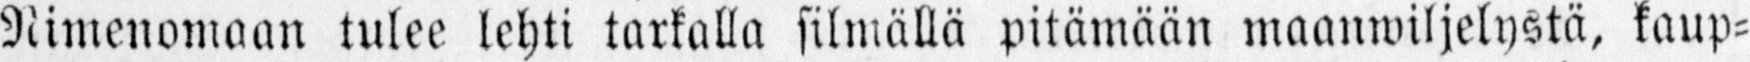Nimenomaan tulee lehti tarkalla silmällä pitämään maanwiljelystä, kaup-
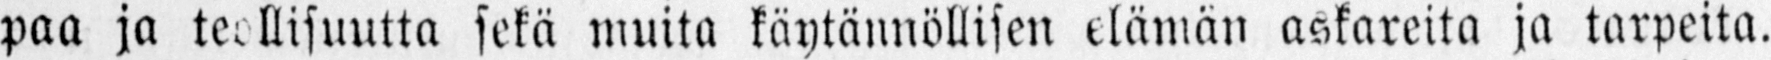paa ja teollisuutta sekä muita käytännöllisen elämän askareita ja tarpeita.
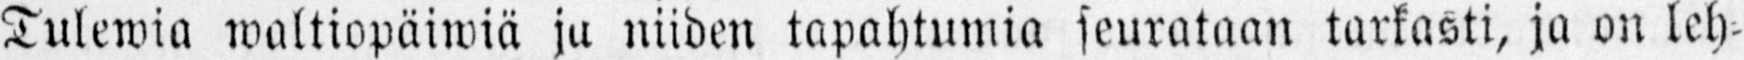Tulewia waltiopäiwiä ja niiden tapahtumia seurataan tarkasti, ja on leh-
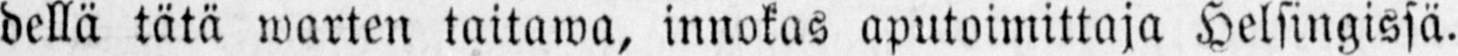dellä tätä warten taitawa, innokas aputoimittaja Helsingissä.
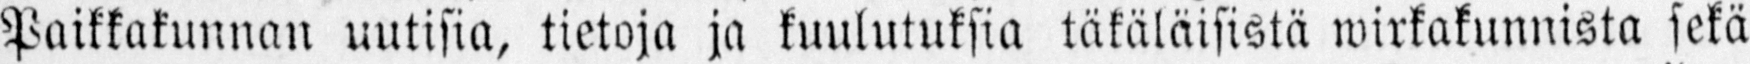Paikkakunnan uutisia, tietoja ja kuulutuksia täkäläisistä wirkakunnista sekä
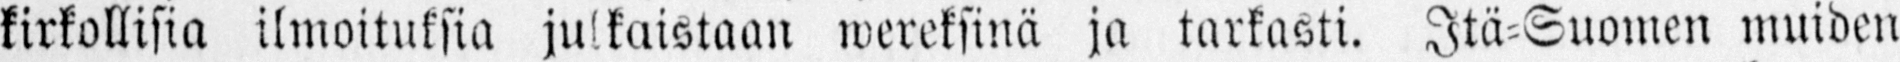kirkollisia ilmoituksia julkaistaan wereksinä ja tarkasti. Itä-Suomen muiden
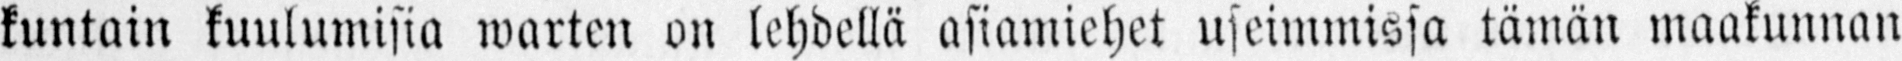kuntain kuulumisia warten on lehdellä asiamiehet useimmissa tämän maakunnan
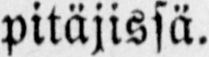pitäjissä.
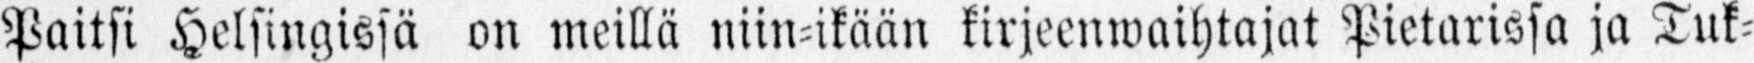Paitsi Helsingissä on meillä niin-ikään kirjeenwaihtajat Pietarissa ja Tuk-
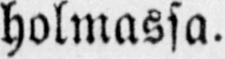holmassa.
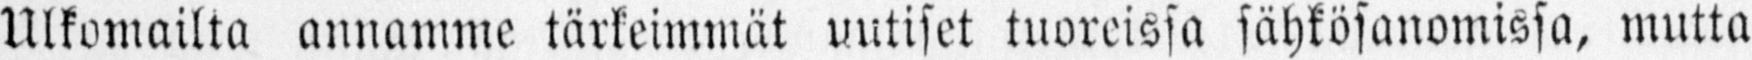Ulkomailta annamme tärkeimmät uutiset tuoreissa sähkösanomissa, mutta
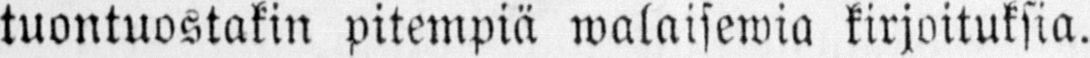tuontuostakin pitempiä walaisewia kirjoituksia.
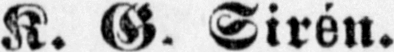K. G. Sirén.
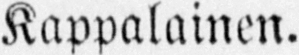Kappalainen.
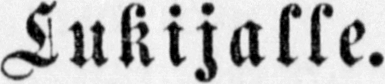Lukijalle.
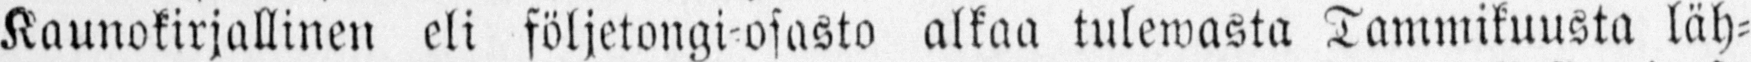Kaunokirjallinen eli följetongi-osasto alkaa tulewasta Tammikuusta läh-
